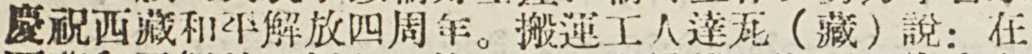慶祝西藏和平解放四周年。搬運工人達瓦（藏）說：在
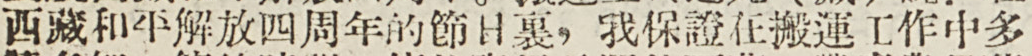西藏和平解放四周年的節日裏，我保證在搬運工作中多
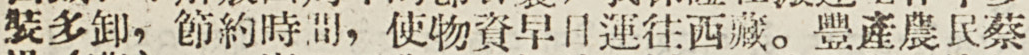裝多卸，節約時間，使物資早日運往西藏。峰產農民蔡
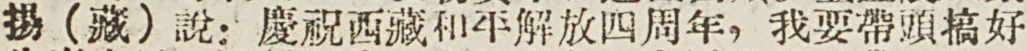揚（藏）說：慶祝西藏和平解放四周年，我要帶頭搞好
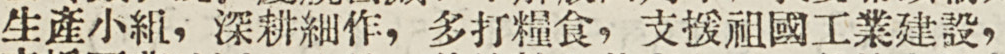生產小組，深耕細作，多打糧食，支援祖國工業建設，
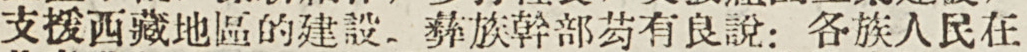支援西藏地區的建設。彝族幹部芶有良說：各族人民在
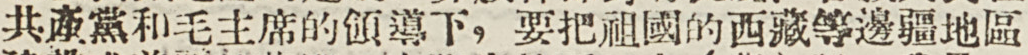共產黨和毛主席的領導下，要把祖國的西藏等邊疆地區
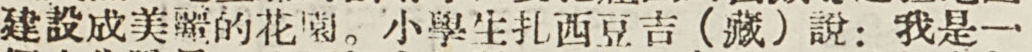建設成美麗的花園。小學生扎西豆吉（藏）說：我是一
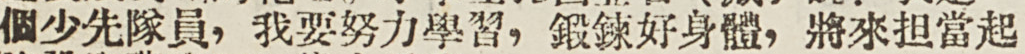個少先隊員，我要努力學習，鍛鍊好身體，將來担當起
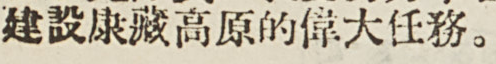建設康藏高原的偉大任務。
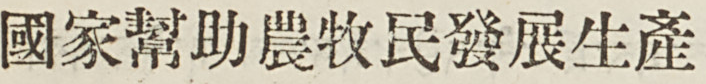國家幫助農民發展生產
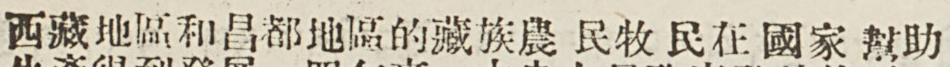西藏地區和昌都地區的藏族農民牧民在國家幫助
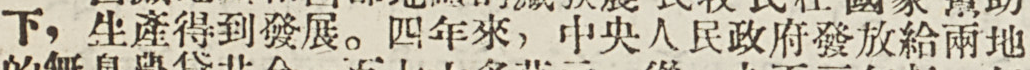下，生產得到發展。四年來，中央人民政府發放給兩地
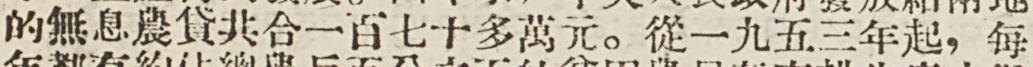的無息農貸共合一百七十多萬元。從一九五三年起，每
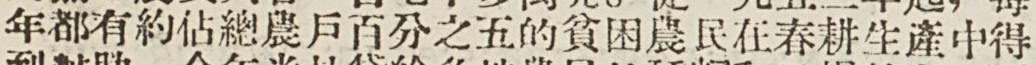年都有約佔總農戶百分之五的貧困農民在春耕生產中得
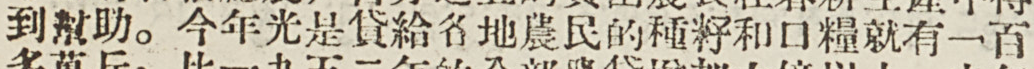到幫助。今年光是貸給各地農民的種籽和口糧就有一百
